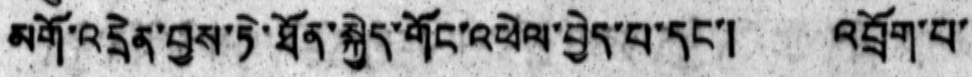མགོ་འདྲེན་བྱས་ཏེ་ཐོན་སྐྱེད་གོང་འཕེལ་བྱེད་པ་དང་། འབྲོག་པ་
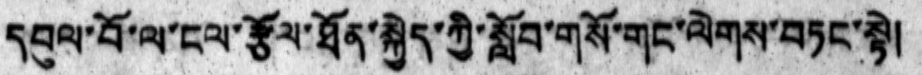དབུལ་བོ་ལ་ངལ་རྩོལ་ཐོན་སྐྱེད་ཀྱི་སློབ་གསོ་གང་ལེགས་བཏང་སྟེ།
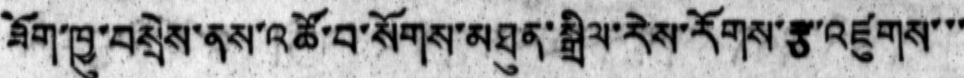ཟོག་ཁྱུ་བསྲེས་ནས་འཚོ་བ་སོགས་མཐུན་སྒྲིལ་རེས་རོགས་རྩ་འཛུགས་་་
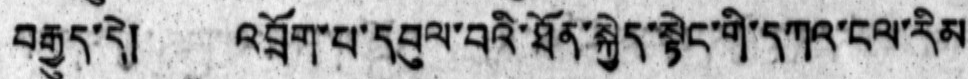བརྒྱུད་དེ། འབྲོག་པ་དབུལ་བའི་ཐོན་སྐྱེད་སྟེང་གི་དཀའ་ངལ་རིམ
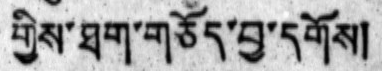གྱིས་ཐག་གཅོད་བྱ་དགོས།
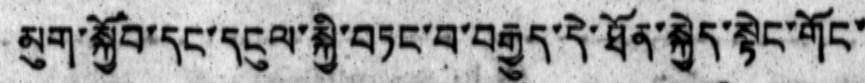མུག་སྐྱོབ་དང་དངུལ་སྐྱི་བཏང་བ་བརྒྱུད་དེ་ཐོན་སྐྱེད་སྟེང་གོང་
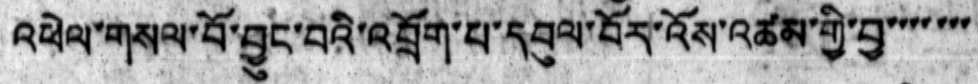འཕེལ་གསལ་བོ་བྱུང་བའི་འབྲོག་པ་དབུལ་བོར་འོས་འཚམ་གྱི་བྱ་་་་་་་
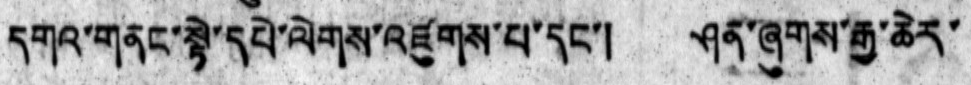དགའ་གནང་སྟེ་དཔེ་ལེགས་འཛུགས་པ་དང་། ཤན་ཞུགས་རྒྱ་ཆེར་
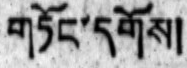གཏོང་དགོས།
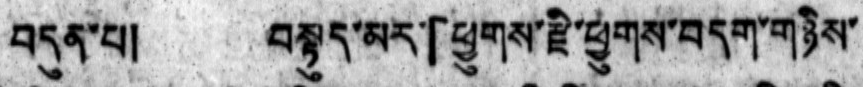བདུན་པ།  བསྟུད་མར་「ཕྱུགས་རྫི་ཕྱུགས་བདག་གཉིས་
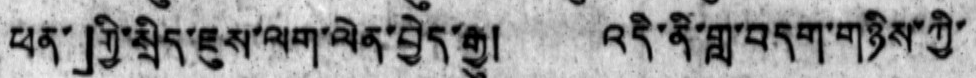ཕན་」གྱི་སྲིད་ཇུས་ལག་ལེན་བྱེད་རྒྱུ། འདི་ནི་གླ་བདག་གཉིས་ཀྱི་
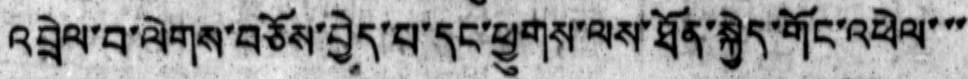འབྲེལ་བ་ལེགས་བཅོས་བྱེད་པ་དང་ཕྱུགས་ལས་ཐོན་སྐྱེད་གོང་འཕེལ་་་
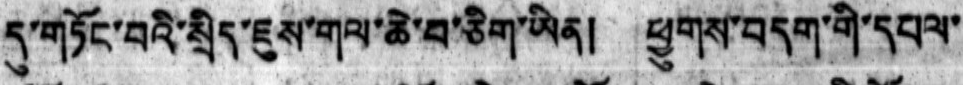དུ་གཏོང་བའི་སྲིད་ཇུས་གལ་ཆེ་བ་ཅིག་ཡིན།  ཕྱུགས་བདག་གི་དཔལ་
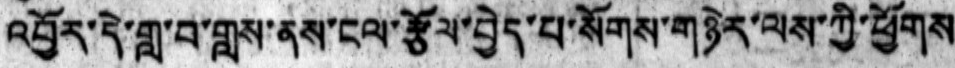འབྱོར་དེ་གླ་བ་གླས་ནས་ངལ་རྩོལ་བྱེད་པ་སོགས་གཉེར་ལས་ཀྱི་ཕྱོགས
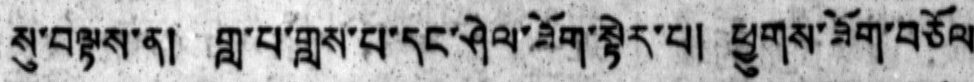སུ་བལྟས་ན། གླ་པ་གླས་པ་དང་ཤེལ་ཟོག་སྟེར་པ། ཕྱུགས་ཟོག་བཅོལ
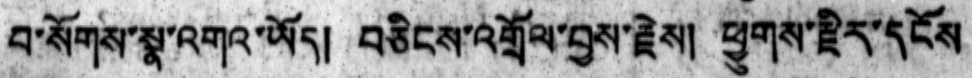བ་སོགས་སྣ་འགའ་ཡོད། བཅིངས་འགྲོལ་བྱས་རྗེས། ཕྱུགས་རྗིར་དངོས
